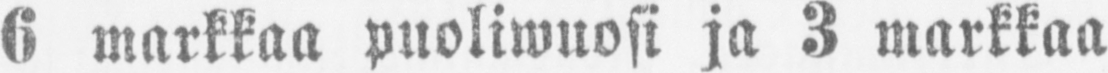6 markkaa puoliwuosi ja 3 markkaa
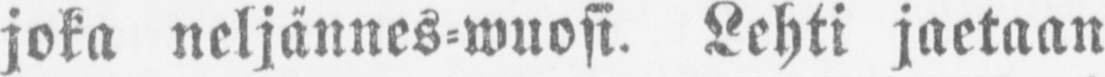joka neljännes-wuosi. Lehti jaetaan
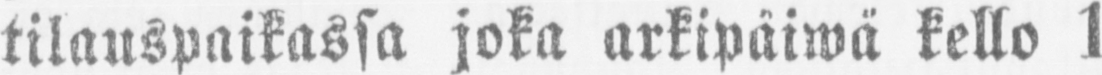tilauspaikassa joka arkipäiwä kello 1
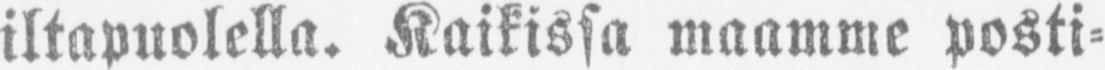iltapuolella. Kaikissa maamme posti-
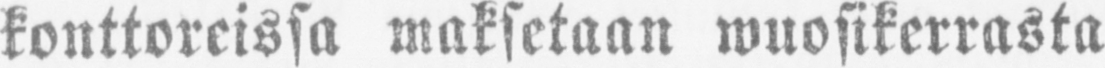konttoreissa maksetaan wuosikerrasta
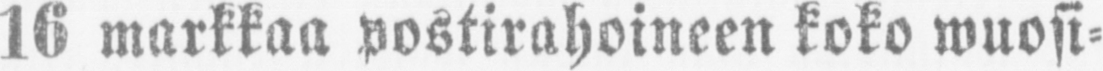16 markkaa postirahoineen koko wuosi-
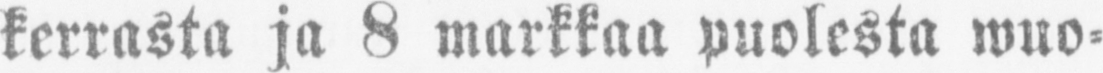kerrasta ja 8 markkaa puolesta wuo-
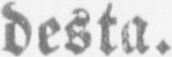desta.
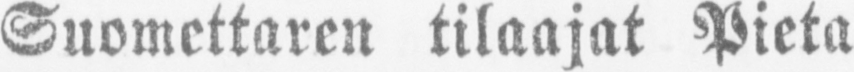Suomettaren tilaajat Pieta-
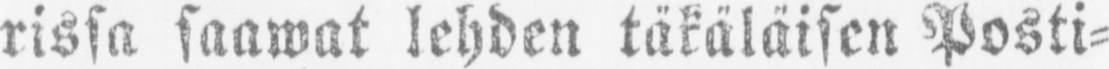rissa saawat lehden täkäläisen Posti-
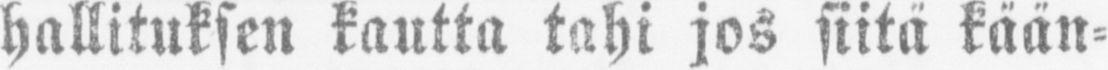hallituksen kautta tahi jos siitä kään-
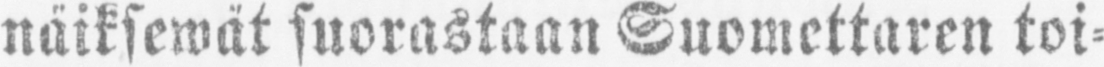näiksewät suorastaan Suomettaren toi-
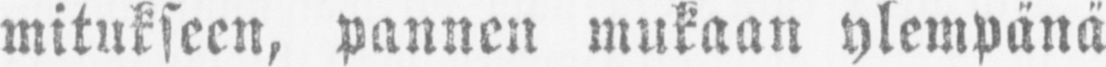mitukseen, pannen mukaan ylempänä
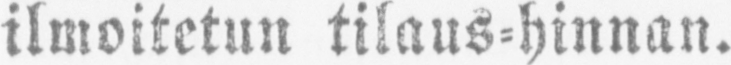ilmoitetun tilaus-hinnan.
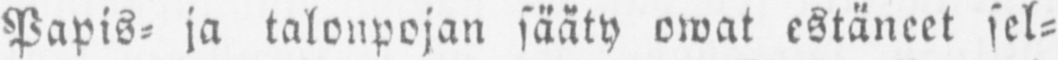Papis- ja talonpojan sääty owat estäneet sel-
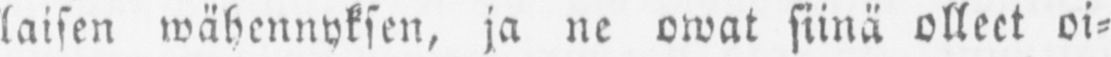laisen wähennyksen, ja ne owat siinä olleet oi-
